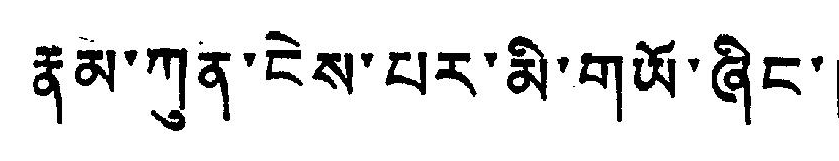རྣམ་ཀུན་ངེས་པར་མི་གཡོ་ཞིང་།
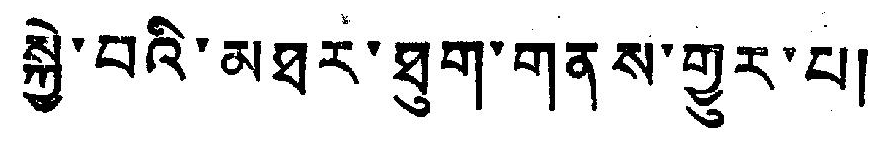སྐྱི་བའི་མཐར་ཐུག་གནས་གྱུར་པ།
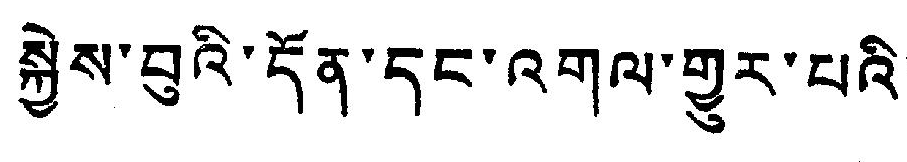སྐྱེས་བུའི་དོན་དང་འགལ་གྱུར་པའི་།
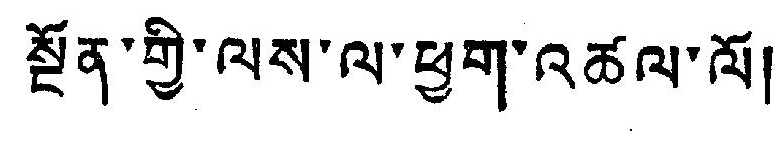སྔོན་གྱི་ལས་ལ་ཕྱག་འཚལ་ལོ།
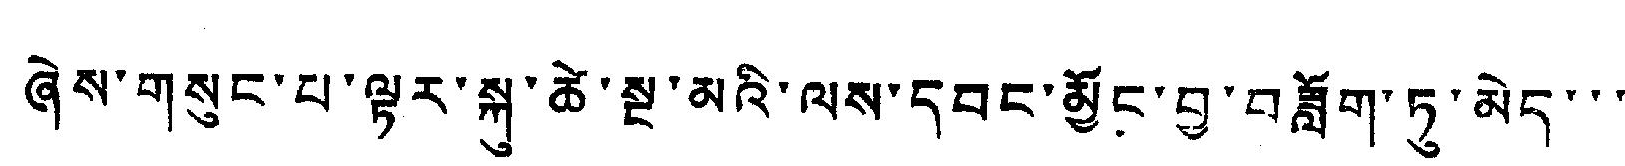ཞེས་གསུང་པ་ལྟར་སྐུ་ཚེ་སྔ་མའི་ལས་དབང་མྱོང་བུ་བཟློག་ཏུ་མེད་་་
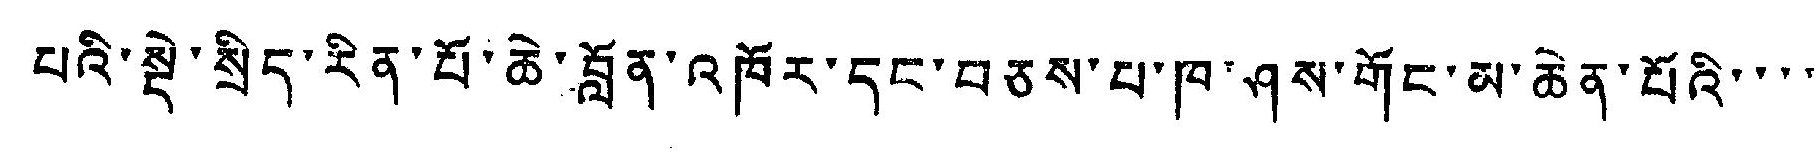པའི་སྡེ་སྲིད་རིན་པོ་ཆེ་བློན་འཁོར་དང་བཅས་པ་ཁ་ཤས་གོང་མ་ཆེན་པོའི་་་་
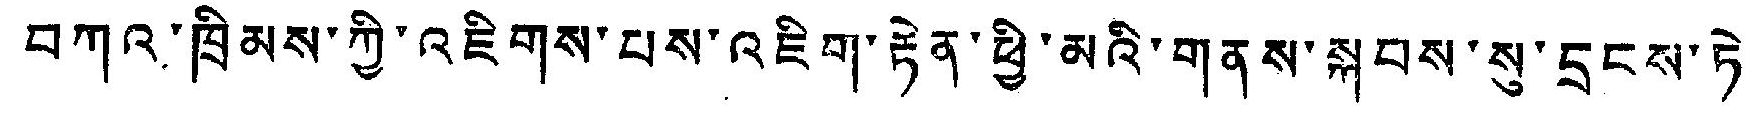བཀའ་ཁྲིམས་ཀྱི་འཇིགས་པས་འཇིག་རྟེན་ཕྱི་མའི་གནས་སྐབས་སུ་དྲངས་ཏེ་་
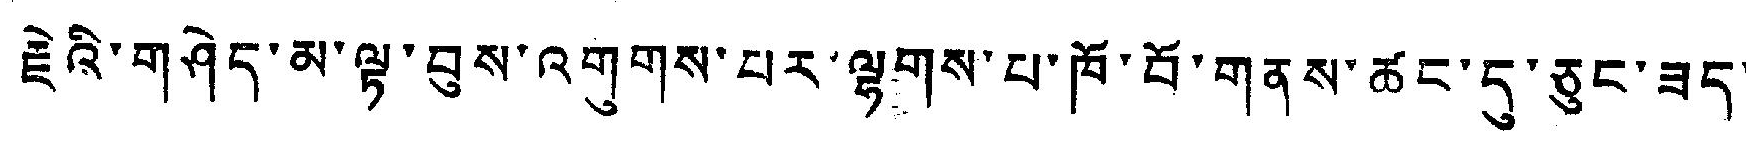རྗེའི་གཤེད་མ་ལྟ་བུས་འགུགས་པར་ལྷགས་པ་ཁོ་བོ་གནས་ཚང་དུ་ཅུང་ཟད་་་
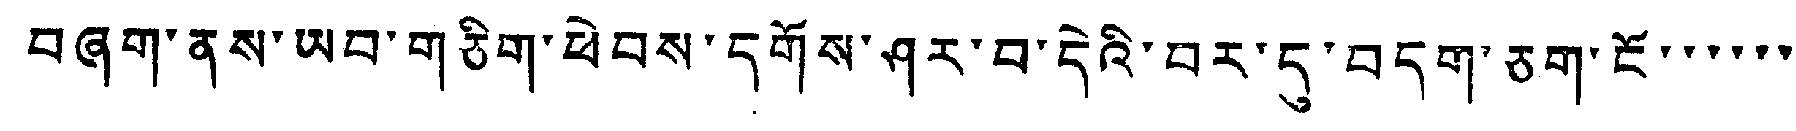བཞག་ནས་ཡབ་གཅིག་ཕེབས་དགོས་ཤར་བ་དེའི་བར་དུ་བདག་ཅག་ངོ་་་་་་
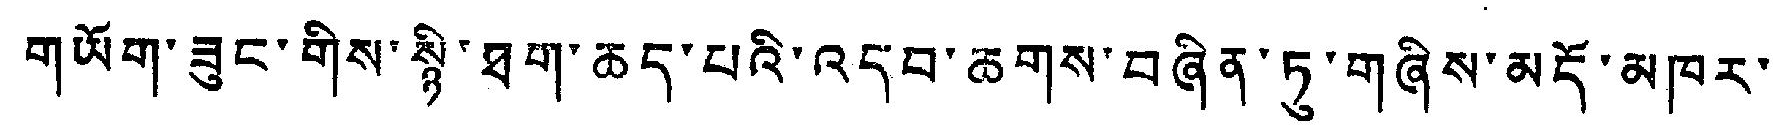གཡོག་ཟུང་གིས་སྙི་ཐག་ཆད་པའི་འདབ་ཆགས་བཞིན་ཏུ་གཞིས་མདོ་མཁར་་
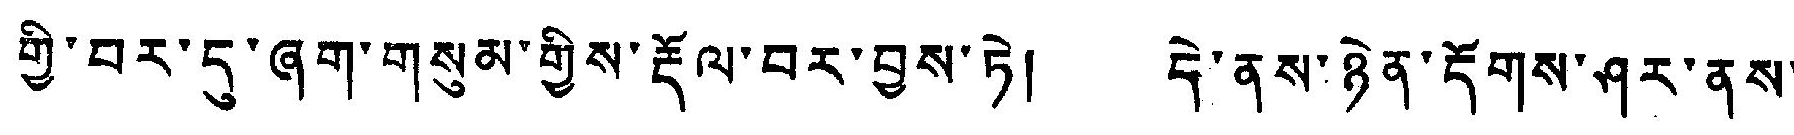གྱི་བར་དུ་ཞག་གསུམ་གྱིས་རྡོལ་བར་བྱས་ཏེ། དེ་ནས་ཉེན་དོགས་ཤར་ནས་་
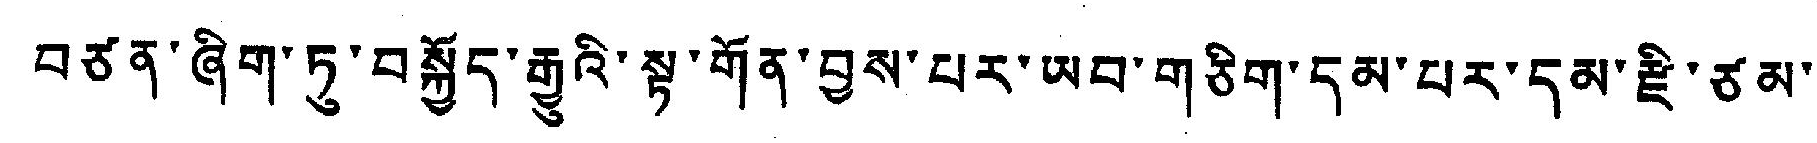བཙན་ཞིག་ཏུ་བསྐྱོད་རྒྱུའི་སྟ་གོན་བྱས་པར་ཡབ་གཅིག་དམ་པར་དམ་རི་ཙམ་
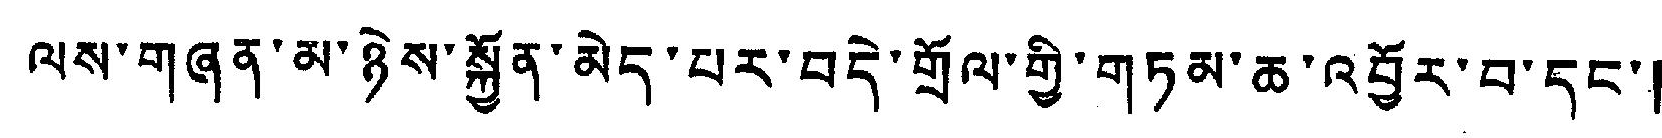ལས་གཞན་མ་ཉེས་སྐྱོན་མེད་པར་བདེ་གྲོལ་གྱི་གཏམ་ཆ་འབྱོར་བ་དང་།
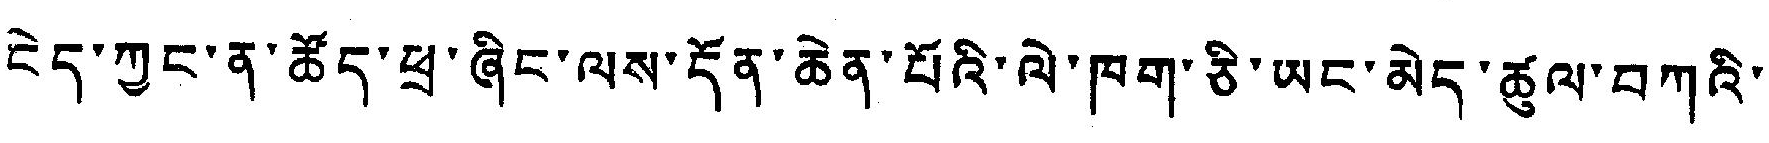ངེད་ཀྱང་ན་ཚོད་ཕྲ་ཞིང་ལས་དོན་ཆེན་པོའི་ལེ་ཁག་ཅི་ཡང་མེད་ཚུལ་བཀའི་་
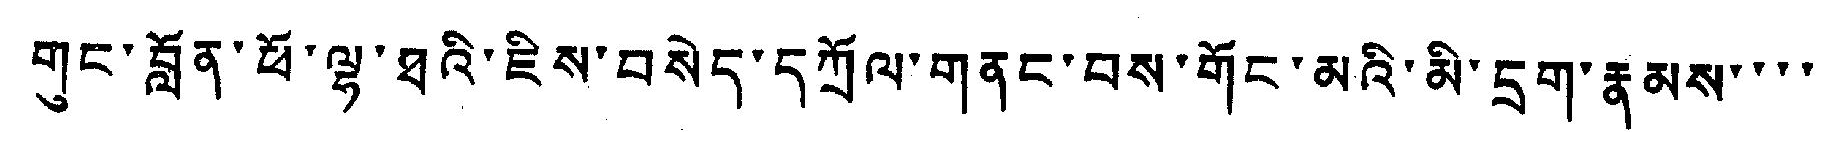གུང་བློན་ཕོ་ལྷ་ཐའི་ཇིས་བསེད་དཀྲོལ་གནང་བས་གོང་མའི་མི་དྲག་རྣམས་་་་
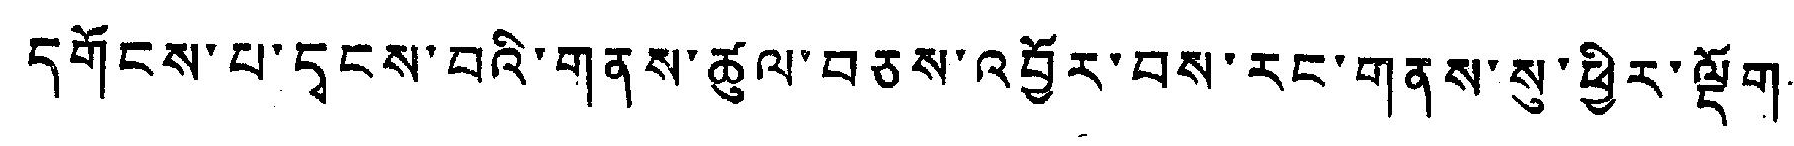དགོངས་པ་དྭངས་བའི་གནས་ཚུལ་བཅས་འབྱོར་བས་རང་གནས་སུ་ཕྱིར་ལྡོག
